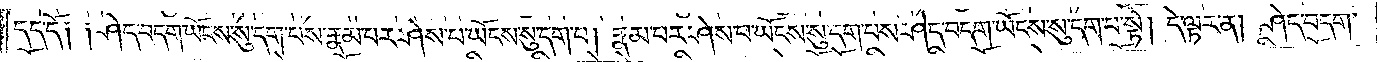དད་དོ༑ ༑ཤེད་བདག་ཡོངས་སུ་དག་པས་རྣམ་པར་ཤེས་པ་ཡོངས་སུ་དག་པ། རྣམ་པར་ཤེས་པ་ཡོངས་སུ་དག་པས་ཤེད་བདག་ཡོངས་སུ་དག་པ་སྟེ། དེ་ལྟར་ན། ཤེད་བདག་
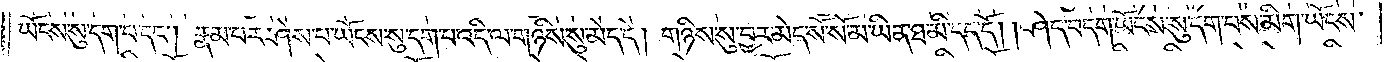ཡོངས་སུ་དག་པ་དང༌། རྣམ་པར་ཤེས་པ་ཡོངས་སུ་དག་པ་འདི་ལ་གཉིས་སུ་མེད་དེ། གཉིས་སུ་བྱར་མེད་སོ་སོ་མ་ཡིན་ཐ་མི་དད་དོ། །ཤེད་བདག་ཡོངས་སུ་དག་པས་མིག་ཡོངས་
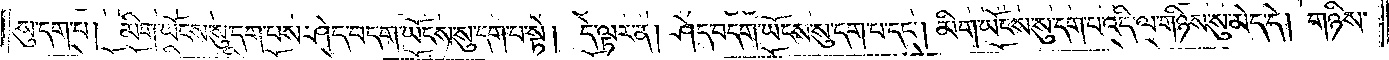སུ་དག་པ། མིག་ཡོངས་སུ་དག་པས་ཤེད་བདག་ཡོངས་སུ་དག་པ་སྟེ། དེ་ལྟར་ན། ཤེད་བདག་ཡོངས་སུ་དག་པ་དང༌། མིག་ཡོངས་སུ་དག་པ་འདི་ལ་གཉིས་སུ་མེད་དེ། གཉིས་
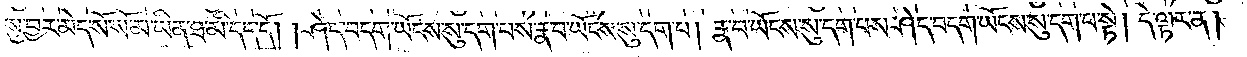སུ་བྱར་མེད་སོ་སོ་མ་ཡིན་ཐ་མི་དད་དོ། །ཤེད་བདག་ཡོངས་སུ་དག་པས་རྣ་བ་ཡོངས་སུ་དག་པ། རྣ་བ་ཡོངས་སུ་དག་པས་ཤེད་བདག་ཡོངས་སུ་དག་པ་སྟེ། དེ་ལྟར་ན།
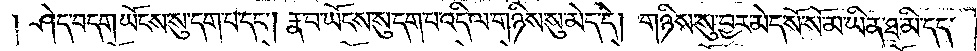ཤེད་བདག་ཡོངས་སུ་དག་པ་དང༌། རྣ་བ་ཡོངས་སུ་དག་པ་འདི་ལ་གཉིས་སུ་མེད་དེ། གཉིས་སུ་བྱར་མེད་སོ་སོ་མ་ཡིན་ཐ་མི་དད་
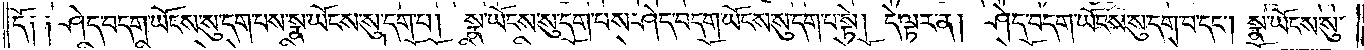དོ༑ ༑ཤེད་བདག་ཡོངས་སུ་དག་པས་སྣ་ཡོངས་སུ་དག་པ། སྣ་ཡོངས་སུ་དག་པས་ཤེད་བདག་ཡོངས་སུ་དག་པ་སྟེ། དེ་ལྟར་ན། ཤེད་བདག་ཡོངས་སུ་དག་པ་དང༌། སྣ་ཡོངས་སུ་
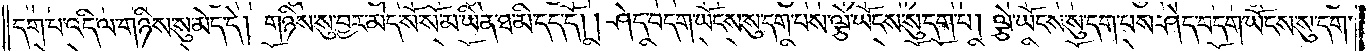དག་པ་འདི་ལ་གཉིས་སུ་མེད་དེ། གཉིས་སུ་བྱར་མེད་སོ་སོ་མ་ཡིན་ཐ་མི་དད་དོ། །ཤེད་བདག་ཡོངས་སུ་དག་པས་ལྕེ་ཡོངས་སུ་དག་པ། ལྕེ་ཡོངས་སུ་དག་པས་ཤེད་བདག་ཡོངས་སུ་དག་
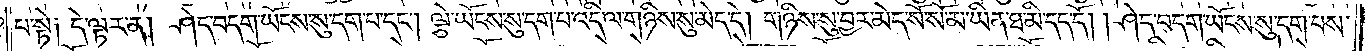པ་སྟེ༑ དེ་ལྟར་ན། ཤེད་བདག་ཡོངས་སུ་དག་པ་དང༌། ལྕེ་ཡོངས་སུ་དག་པ་འདི་ལ་གཉིས་སུ་མེད་དེ། གཉིས་སུ་བྱར་མེད་སོ་སོ་མ་ཡིན་ཐ་མི་དད་དོ། ཤེད་བདག་ཡོངས་སུ་དག་པས་
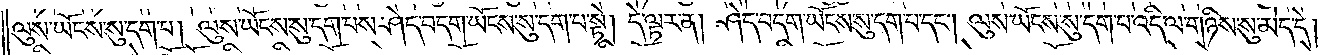ལུས་ཡོངས་སུ་དག་པ། ལུས་ཡོངས་སུ་དག་པས་ཤེད་བདག་ཡོངས་སུ་དག་པ་སྟེ། དེ་ལྟར་ན། ཤེད་བདག་ཡོངས་སུ་དག་པ་དང༌། ལུས་ཡོངས་སུ་དག་པ་འདི་ལ་གཉིས་སུ་མེད་དེ།
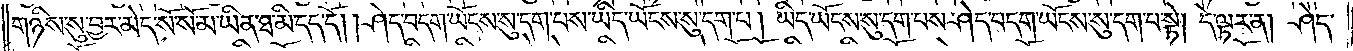གཉིས་སུ་བྱར་མེད་སོ་སོ་མ་ཡིན་ཐ་མི་དད་དོ། །ཤེད་བདག་ཡོངས་སུ་དག་པས་ཡིད་ཡོངས་སུ་དག་པ། ཡིད་ཡོངས་སུ་དག་པས་ཤེད་བདག་ཡོངས་སུ་དག་པ་སྟེ། དེ་ལྟར་ན། ཤེད་
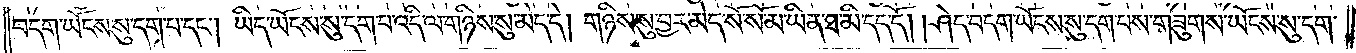བདག་ཡོངས་སུ་དག་པ་དང༌། ཡིད་ཡོངས་སུ་དག་པ་འདི་ལ་གཉིས་སུ་མེད་དེ། གཉིས་སུ་བྱར་མེད་སོ་སོ་མ་ཡིན་ཐ་མི་དད་དོ། །ཤེད་བདག་ཡོངས་སུ་དག་པས་གཟུགས་ཡོངས་སུ་དག་
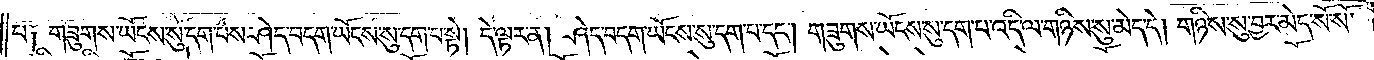པ༑ གཟུགས་ཡོངས་སུ་དག་པས་ཤེད་བདག་ཡོངས་སུ་དག་པ་སྟེ། དེ་ལྟར་ན། ཤེད་བདག་ཡོངས་སུ་དག་པ་དང༌། གཟུགས་ཡོངས་སུ་དག་པ་འདི་ལ་གཉིས་སུ་མེད་དེ། གཉིས་སུ་བྱར་མེད་སོ་སོ་
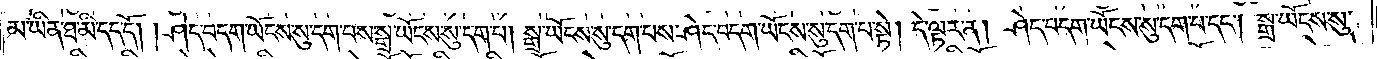མ་ཡིན་ཐ་མི་དད་དོ། །ཤེད་བདག་ཡོངས་སུ་དག་པས་སྒྲ་ཡོངས་སུ་དག་པ། སྒྲ་ཡོངས་སུ་དག་པས་ཤེད་བདག་ཡོངས་སུ་དག་པ་སྟེ། དེ་ལྟར་ན། ཤེད་བདག་ཡོངས་སུ་དག་པ་དང༌། སྒྲ་ཡོངས་སུ་
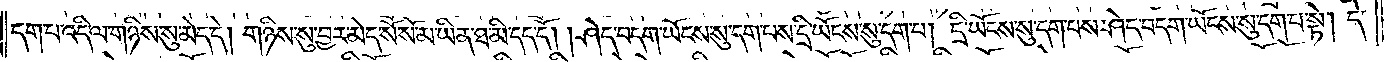དག་པ་འདི་ལ་གཉིས་སུ་མེད་དེ། གཉིས་སུ་བྱར་མེད་སོ་སོ་མ་ཡིན་ཐ་མི་དད་དོ། །ཤེད་བདག་ཡོངས་སུ་དག་པས་དྲི་ཡོངས་སུ་དག་པ། དྲི་ཡོངས་སུ་དག་པས་ཤེད་བདག་ཡོངས་སུ་དག་པ་སྟེ། དེ་
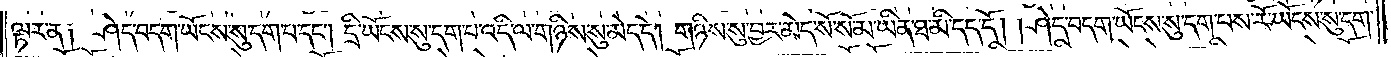ལྟར་ན༑ ཤེད་བདག་ཡོངས་སུ་དག་པ་དང༌། དྲི་ཡོངས་སུ་དག་པ་འདི་ལ་གཉིས་སུ་མེད་དེ། གཉིས་སུ་བྱར་མེད་སོ་སོ་མ་ཡིན་ཐ་མི་དད་དོ། །ཤེད་བདག་ཡོངས་སུ་དག་པས་རོ་ཡོངས་སུ་དག་
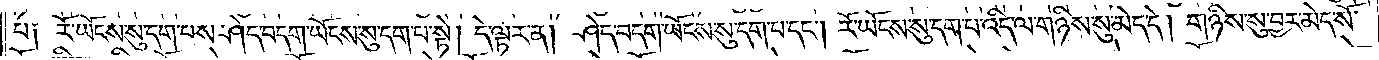པ༑ རོ་ཡོངས་སུ་དག་པས་ཤེད་བདག་ཡོངས་སུ་དག་པ་སྟེ། དེ་ལྟར་ན། ཤེད་བདག་ཡོངས་སུ་དག་པ་དང༌། རོ་ཡོངས་སུ་དག་པ་འདི་ལ་གཉིས་སུ་མེད་དེ། གཉིས་སུ་བྱར་མེད་སོ་
